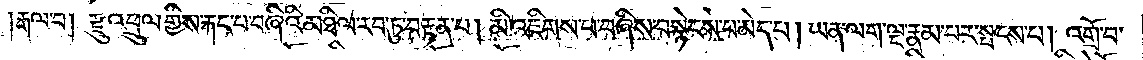རྒལ་བ། རྫུ་འཕྲུལ་གྱིས་རྐང་པ་བཞིའི་མཐིལ་རབ་ཏུ་བརྟན་པ། མི་འཇིགས་པ་བཞིས་བསྙེངས་པ་མེད་པ། ཡན་ལག་ལྔ་རྣམ་པར་སྤངས་པ། འགྲོ་བ་
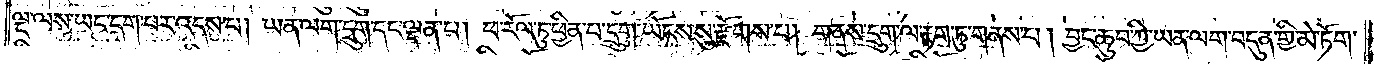ལྔ་ལས་ཡང་དག་པར་འདས་པ། ཡན་ལག་དྲུག་དང་ལྡན་པ། ཕ་རོལ་ཏུ་ཕྱིན་པ་དྲུག་ཡོངས་སུ་རྫོགས་པ། གནས་དྲུག་ལ་རྟག་ཏུ་གནས་པ། བྱང་ཆུབ་ཀྱི་ཡན་ལག་བདུན་གྱི་མེ་ཏོག་
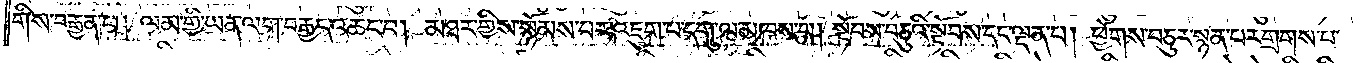གིས་བརྒྱན་པ། ལམ་གྱི་ཡན་ལག་བརྒྱད་འཆང་བ། མཐར་གྱིས་སྙོམས་པར་འཇུག་པ་དགུ་ལ་མཁས་པ། སྟོབས་བཅུའི་སྟོབས་དང་ལྡན་པ། ཕྱོགས་བཅུར་སྙན་པར་གྲགས་པ་
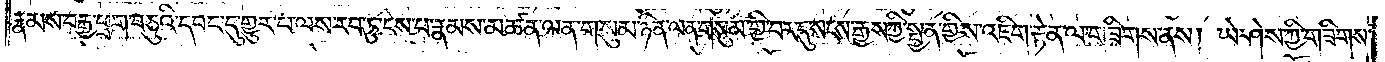རྣམས་བརྒྱ་ཕྲག་བཅུའི་དབང་དུ་གྱུར་པ་ལས་རབ་ཏུ་ངེས་པ་རྣམས་མཚན་ལན་གསུམ་ཉིན་ལན་གསུམ་གྱི་བར་དུ་སངས་རྒྱས་ཀྱི་སྤྱན་གྱིས་འཇིག་རྟེན་ལ་གཟིགས་ནས། ཡེ་ཤེས་ཀྱི་གཟིགས་
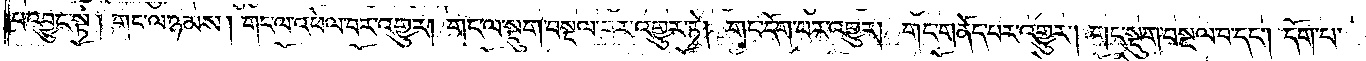པ་འབྱུང་སྟེ། གང་ལ་ཉམས། གང་ལ་འཕེལ་བར་འགྱུར། གང་ལ་སྡུག་བསྔལ་བར་འགྱུར་ཏེ། གང་དོག་པར་འགྱུར། གང་གནོད་པར་འགྱུར། གང་སྡུག་བསྔལ་བ་དང༌། དོག་པ་
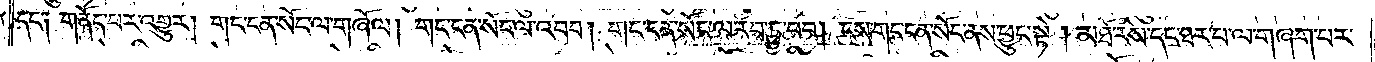དང༌། གནོད་པར་འགྱུར། གང་ངན་སོང་ལ་གཞོལ། གང་ངན་སོང་ལ་འབབ། གང་ངན་སོང་ལ་རབ་ཏུ་བབ། ངས་གང་ངན་སོང་ནས་ཕྱུང་སྟེ། མཐོ་རིས་དང་ཐར་པ་ལ་གཞག་པར་
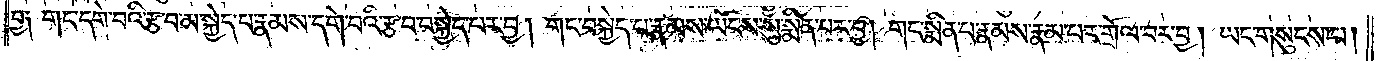བྱ༑ གང་དགེ་བའི་རྩ་བ་མ་སྐྱེད་པ་རྣམས་དགེ་བའི་རྩ་བ་བསྐྱེད་པར་བྱ། གང་བསྐྱེད་པ་རྣམས་ཡོངས་སུ་སྨིན་པར་བྱ། གང་སྨིན་པ་རྣམས་རྣམ་པར་གྲོལ་བར་བྱ། ཡང་གསུངས་པ།
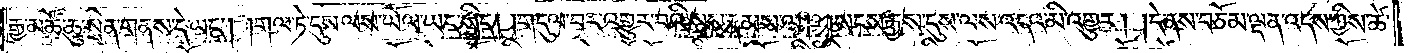རྒྱ་མཚོ་ཆུ་སྲིན་གནས་དེ་ཡང༌། །གལ་ཏེ་དུས་ལས་ཡོལ་ཡང་སྲིད། །གདུལ་བར་འགྱུར་བའི་སྲས་རྣམས་ལ། །སངས་རྒྱས་དུས་ལས་འདའ་མི་འགྱུར། །དེ་ནས་བཅོམ་ལྡན་འདས་ཀྱིས་ཚེ་
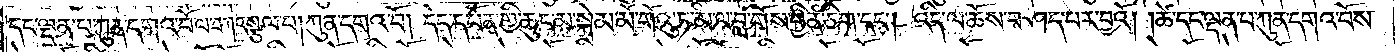དང་ལྡན་པ་ཀུན་དགའ་བོ་ལ་བཀའ་སྩལ་པ། ཀུན་དགའ་བོ། དེད་དཔོན་གྱི་ཆུང་མ་སྐེམ་མོ་གོའུ་ཏ་མི་ལ་བླ་གོས་བྱིན་ཅིག་དང༌། འདི་ལ་ཆོས་བཤད་པར་བྱའོ། །ཚེ་དང་ལྡན་པ་ཀུན་དགའ་བོས་
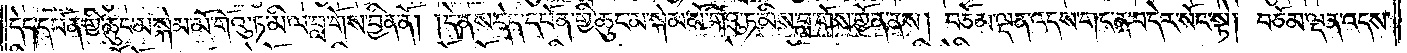དེད་དཔོན་གྱི་ཆུང་མ་སྐེམ་མོ་གོའུ་ཏ་མི་ལ་བླ་གོས་བྱིན་ནོ། །དེ་ནས་དེད་དཔོན་གྱི་ཆུང་མ་སྐེམ་མོ་གོའུ་ཏ་མིས་བླ་གོས་གྱོན་ནས། བཅོམ་ལྡན་འདས་གང་ན་བདེར་སོང་སྟེ། བཅོམ་ལྡན་འདས་
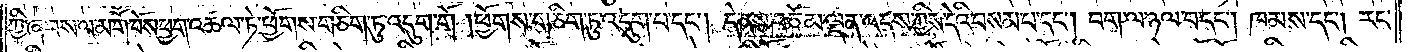ཀྱི་ཞབས་ལ་མགོ་བོས་ཕྱག་འཚལ་ཏེ་ཕྱོགས་གཅིག་ཏུ་འདུག་གོ །ཕྱོགས་གཅིག་ཏུ་འདུག་པ་དང༌། དེ་ནས་བཅོམ་ལྡན་འདས་ཀྱིས་དེའི་བསམ་པ་དང༌། བག་ལ་ཉལ་བ་དང༌། ཁམས་དང༌། རང་
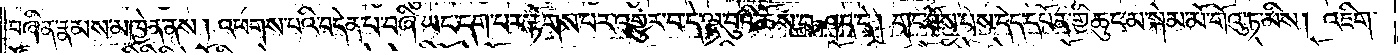བཞིན་རྣམས་མཁྱེན་ནས། འཕགས་པའི་བདེན་པ་བཞི་ཡང་དག་པར་རྟོགས་པར་འགྱུར་བ་དེ་ལྟ་བུའི་ཆོས་བཤད་དེ། གང་ཐོས་པས་དེད་དཔོན་གྱི་ཆུང་མ་སྐེམ་མོ་གོའུ་ཏ་མིས། འཇིག་
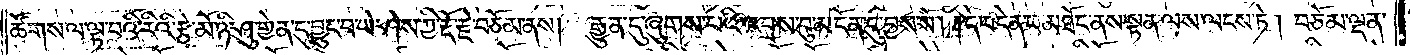ཚོགས་ལ་ལྟ་བའི་རིའི་རྩེ་མོ་ཉི་ཤུ་གྱེན་དུ་བྱུང་བ་ཡེ་ཤེས་ཀྱི་རྡོ་རྗེ་བཅོམ་ནས། རྒྱུན་དུ་ཞུགས་པའི་འབྲས་བུ་མངོན་དུ་བྱས་སོ། །དེ་བདེན་པ་མཐོང་ནས་སྟན་ལས་ལངས་ཏེ། བཅོམ་ལྡན་
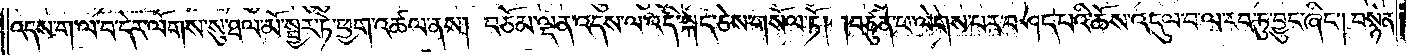འདས་ག་ལ་བ་དེར་ལོགས་སུ་ཐལ་མོ་སྦྱར་ཏེ་ཕྱག་འཚལ་ནས། བཅོམ་ལྡན་འདས་ལ་འདི་སྐད་ཅེས་གསོལ་ཏོ། །བཙུན་པ་ལེགས་པར་བཤད་པའི་ཆོས་འདུལ་བ་ལ་རབ་ཏུ་བྱུང་ཞིང༌། བསྙེན་
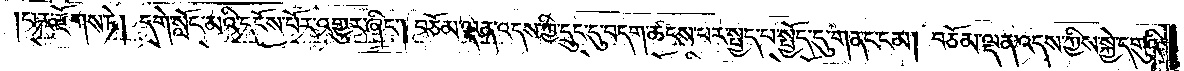པར་རྫོགས་ཏེ། དགེ་སློང་མའི་དངོས་པོར་འགྱུར་ཞིང༌། བཅོམ་ལྡན་འདས་ཀྱི་དྲུང་དུ་བདག་ཚངས་པར་སྤྱད་པ་སྤྱོད་དུ་གནང་ངམ། བཅོམ་ལྡན་འདས་ཀྱིས་སྐྱེ་དགུའི་
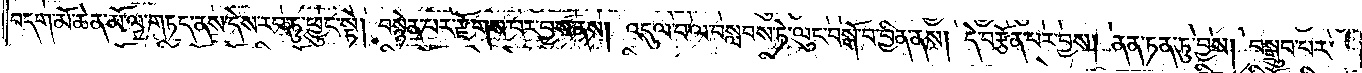བདག་མོ་ཆེན་མོ་ལ་གཏད་ནས་དེས་རབ་ཏུ་ཕྱུང་སྟེ། བསྙེན་པར་རྫོགས་པར་བྱས་ནས། འདུལ་བ་ལ་བསླབས་ཏེ་ལུང་བསྒོ་བ་བྱིན་ནས། དེ་བརྩོན་པར་བྱས། ནན་ཏན་ཏུ་བྱས། བསྒྲུབ་པར་
